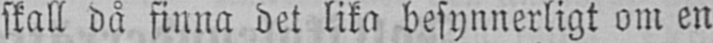skall då finna det lika besynnerligt om en
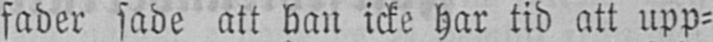fader sade att han icke har tid att upp-
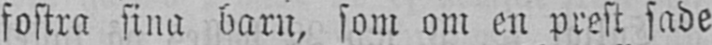fostra sina barn, som om en prest sade
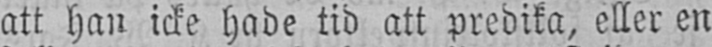att han icke hade tid att predika, eller en
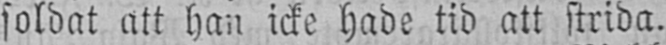soldat att han icke hade tid att strida.
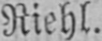Riehl.
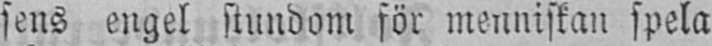sens engel stundom för menniskan spela
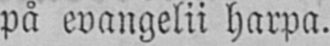på evangelii harpa.
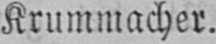Krummacher.
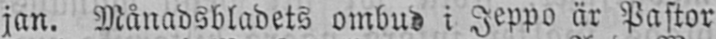jan. Månadsbladets ombud i Jeppo är Pastor
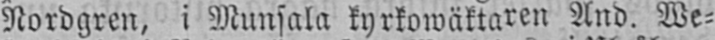Nordgren, i Munsala kyrkowäktaren And. We-
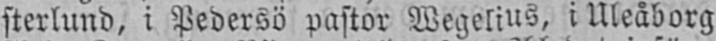sterlund, i Pedersö pastor Wegelius, i Uleåborg
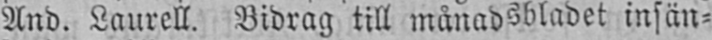And. Laurell. Bidrag till månadsbladet insän-
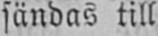sändas till
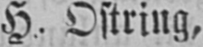H. Östring,
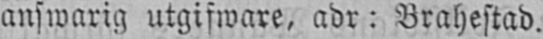answarig utgifware, adr : Brahestad.
